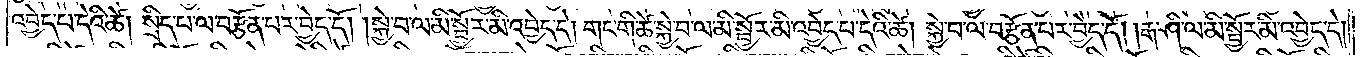འབྱེད་པ་དེའི་ཚེ། སྲིད་པ་ལ་བརྩོན་པར་བྱེད་དོ། །སྐྱེ་བ་ལ་མི་སྦྱོར་མི་འབྱེད་དེ། གང་གི་ཚེ་སྐྱེ་བ་ལ་མི་སྦྱོར་མི་འབྱེད་པ་དེའི་ཚེ། སྐྱེ་བ་ལ་བརྩོན་པར་བྱེད་དོ། །རྒ་ཤི་ལ་མི་སྦྱོར་མི་འབྱེད་དེ།
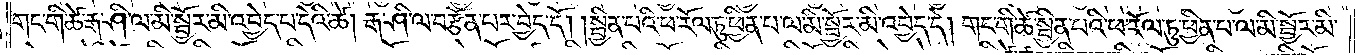གང་གི་ཚེ་རྒ་ཤི་ལ་མི་སྦྱོར་མི་འབྱེད་པ་དེའི་ཚེ། རྒ་ཤི་ལ་བརྩོན་པར་བྱེད་དོ། །སྦྱིན་པའི་ཕ་རོལ་ཏུ་ཕྱིན་པ་ལ་མི་སྦྱོར་མི་འབྱེད་དེ། གང་གི་ཚེ་སྦྱིན་པའི་ཕ་རོལ་ཏུ་ཕྱིན་པ་ལ་མི་སྦྱོར་མི་
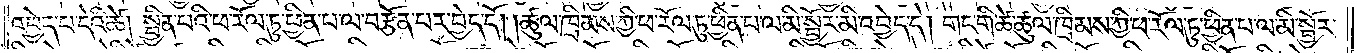འབྱེད་པ་དེའི་ཚེ། སྦྱིན་པའི་ཕ་རོལ་ཏུ་ཕྱིན་པ་ལ་བརྩོན་པར་བྱེད་དོ། །ཚུལ་ཁྲིམས་ཀྱི་ཕ་རོལ་ཏུ་ཕྱིན་པ་ལ་མི་སྦྱོར་མི་འབྱེད་དེ། གང་གི་ཚེ་ཚུལ་ཁྲིམས་ཀྱི་ཕ་རོལ་ཏུ་ཕྱིན་པ་ལ་མི་སྦྱོར་
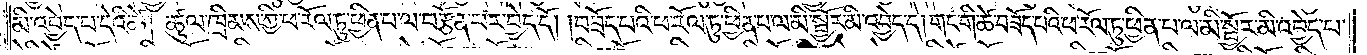མི་འབྱེད་པ་དེའི་ཚེ། ཚུལ་ཁྲིམས་ཀྱི་ཕ་རོལ་ཏུ་ཕྱིན་པ་ལ་བརྩོན་པར་བྱེད་དོ། །བཟོད་པའི་ཕ་རོལ་ཏུ་ཕྱིན་པ་ལ་མི་སྦྱོར་མི་འབྱེད་དེ། གང་གི་ཚེ་བཟོད་པའི་ཕ་རོལ་ཏུ་ཕྱིན་པ་ལ་མི་སྦྱོར་མི་འབྱེད་པ་
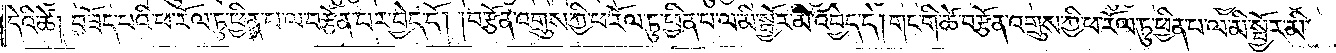དེའི་ཚེ། བཟོད་པའི་ཕ་རོལ་ཏུ་ཕྱིན་པ་ལ་བརྩོན་པར་བྱེད་དོ། །བརྩོན་འགྲུས་ཀྱི་ཕ་རོལ་ཏུ་ཕྱིན་པ་ལ་མི་སྦྱོར་མི་འབྱེད་དེ། གང་གི་ཚེ་བརྩོན་འགྲུས་ཀྱི་ཕ་རོལ་ཏུ་ཕྱིན་པ་ལ་མི་སྦྱོར་མི་
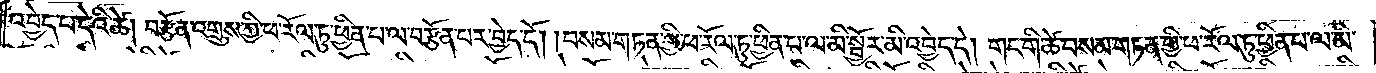འབྱེད་པ་དེའི་ཚེ། བརྩོན་འགྲུས་ཀྱི་ཕ་རོལ་ཏུ་ཕྱིན་པ་ལ་བརྩོན་པར་བྱེད་དོ། །བསམ་གཏན་གྱི་ཕ་རོལ་ཏུ་ཕྱིན་པ་ལ་མི་སྦྱོར་མི་འབྱེད་དེ། གང་གི་ཚེ་བསམ་གཏན་གྱི་ཕ་རོལ་ཏུ་ཕྱིན་པ་ལ་མི་
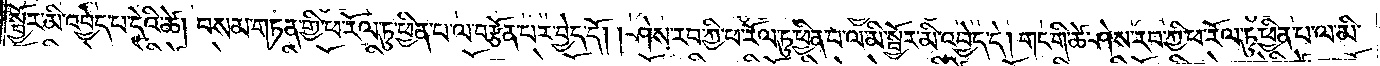སྦྱོར་མི་འབྱེད་པ་དེའི་ཚེ། བསམ་གཏན་གྱི་ཕ་རོལ་ཏུ་ཕྱིན་པ་ལ་བརྩོན་པར་བྱེད་དོ། །ཤེས་རབ་ཀྱི་ཕ་རོལ་ཏུ་ཕྱིན་པ་ལ་མི་སྦྱོར་མི་འབྱེད་དེ། གང་གི་ཚེ་ཤེས་རབ་ཀྱི་ཕ་རོལ་ཏུ་ཕྱིན་པ་ལ་མི་
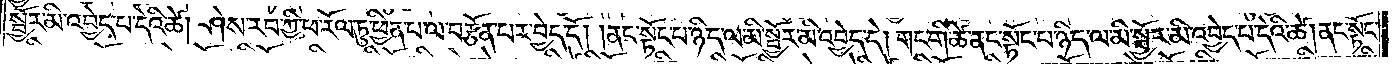སྦྱོར་མི་འབྱེད་པ་དེའི་ཚེ། ཤེས་རབ་ཀྱི་ཕ་རོལ་ཏུ་ཕྱིན་པ་ལ་བརྩོན་པར་བྱེད་དོ། །ནང་སྟོང་པ་ཉིད་ལ་མི་སྦྱོར་མི་འབྱེད་དེ། གང་གི་ཚེ་ནང་སྟོང་པ་ཉིད་ལ་མི་སྦྱོར་མི་འབྱེད་པ་དེའི་ཚེ། ནང་སྟོང་
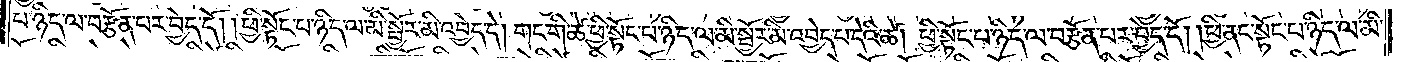པ་ཉིད་ལ་བརྩོན་པར་བྱེད་དོ། །ཕྱི་སྟོང་པ་ཉིད་ལ་མི་སྦྱོར་མི་འབྱེད་དེ། གང་གི་ཚེ་ཕྱི་སྟོང་པ་ཉིད་ལ་མི་སྦྱོར་མི་འབྱེད་པ་དེའི་ཚེ། ཕྱི་སྟོང་པ་ཉིད་ལ་བརྩོན་པར་བྱེད་དོ། །ཕྱི་ནང་སྟོང་པ་ཉིད་ལ་མི་
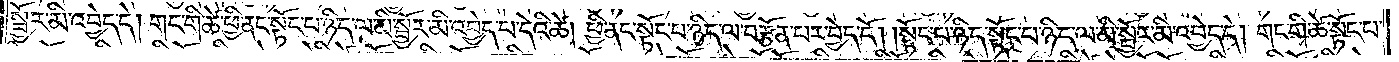སྦྱོར་མི་འབྱེད་དེ། གང་གི་ཚེ་ཕྱི་ནང་སྟོང་པ་ཉིད་ལ་མི་སྦྱོར་མི་འབྱེད་པ་དེའི་ཚེ། ཕྱི་ནང་སྟོང་པ་ཉིད་ལ་བརྩོན་པར་བྱེད་དོ། །སྟོང་པ་ཉིད་སྟོང་པ་ཉིད་ལ་མི་སྦྱོར་མི་འབྱེད་དེ། གང་གི་ཚེ་སྟོང་པ་
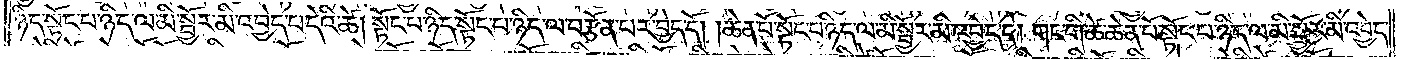ཉིད་སྟོང་པ་ཉིད་ལ་མི་སྦྱོར་མི་བྱེད་པ་དེའི་ཚེ། སྟོང་པ་ཉིད་སྟོང་པ་ཉིད་ལ་བརྩོན་པར་བྱེད་དོ། །ཆེན་པོ་སྟོང་པ་ཉིད་ལ་མི་སྦྱོར་མི་འབྱེད་དེ། གང་གི་ཚེ་ཆེན་པོ་སྟོང་པ་ཉིད་ལ་མི་སྦྱོར་མི་འབྱེད་
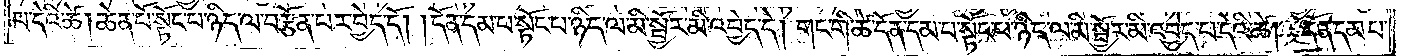པ་དེའི་ཚེ། ཆེན་པོ་སྟོང་པ་ཉིད་ལ་བརྩོན་པར་བྱེད་དོ། །དོན་དམ་པ་སྟོང་པ་ཉིད་ལ་མི་སྦྱོར་མི་འབྱེད་དེ། གང་གི་ཚེ་དོན་དམ་པ་སྟོང་པ་ཉིད་ལ་མི་སྦྱོར་མི་འབྱེད་པ་དེའི་ཚེ། དོན་དམ་པ་
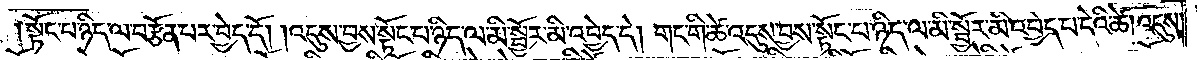སྟོང་པ་ཉིད་ལ་བརྩོན་པར་བྱེད་དོ། །འདུས་བྱས་སྟོང་པ་ཉིད་ལ་མི་སྦྱོར་མི་འབྱེད་དེ། གང་གི་ཚེ་འདུས་བྱས་སྟོང་པ་ཉིད་ལ་མི་སྦྱོར་མི་འབྱེད་པ་དེའི་ཚེ། འདུས་
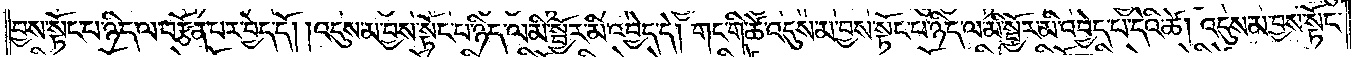བྱས་སྟོང་པ་ཉིད་ལ་བརྩོན་པར་བྱེད་དོ། །འདུས་མ་བྱས་སྟོང་པ་ཉིད་ལ་མི་སྦྱོར་མི་འབྱེད་དེ། གང་གི་ཚེ་འདུས་མ་བྱས་སྟོང་པ་ཉིད་ལ་མི་སྦྱོར་མི་འབྱེད་པ་དེའི་ཚེ། འདུས་མ་བྱས་སྟོང་
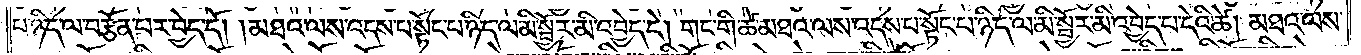པ་ཉིད་ལ་བརྩོན་པར་བྱེད་དོ། །མཐའ་ལས་འདས་པ་སྟོང་པ་ཉིད་ལ་མི་སྦྱོར་མི་འབྱེད་དེ། གང་གི་ཚེ་མཐའ་ལས་འདས་པ་སྟོང་པ་ཉིད་ལ་མི་སྦྱོར་མི་འབྱེད་པ་དེའི་ཚེ། མཐའ་ལས་
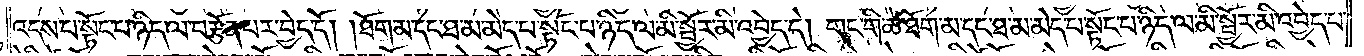འདས་པ་སྟོང་པ་ཉིད་ལ་བརྩོན་པར་བྱེད་དོ། །ཐོག་མ་དང་ཐ་མ་མེད་པ་སྟོང་པ་ཉིད་ལ་མི་སྦྱོར་མི་འབྱེད་དེ། གང་གི་ཚེ་ཐོག་མ་དང་ཐ་མ་མེད་པ་སྟོང་པ་ཉིད་ལ་མི་སྦྱོར་མི་འབྱེད་པ་
